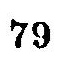79
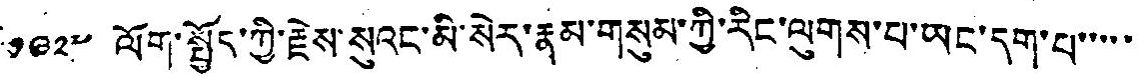༡༩༢༧ ལོག་སྤྱོད་ཀྱི་རྗེས་སུའང་མི་སེར་རྣམ་གསུམ་ཀྱི་རིང་ལུགས་པ་ཡང་དག་པ་་་་་
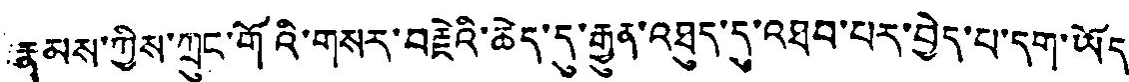རྣམས་ཀྱིས་ཀྲུང་གོའི་གསར་བརྗེའི་ཆེད་དུ་རྒྱུན་འཐུད་དུ་འཐབ་པར་བྱེད་པ་དག་ཡོད་
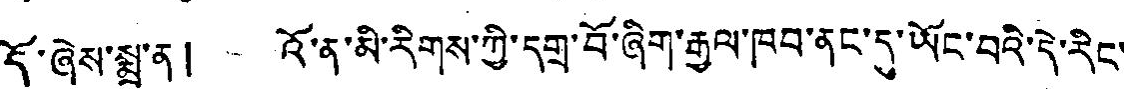དོ་ཞེས་སྨྲ་ན། འོ་ན་མི་རིགས་ཀྱི་དགྲ་བོ་ཞིག་རྒྱལ་ཁབ་ནང་དུ་ཡོང་བའི་དེ་རིང་
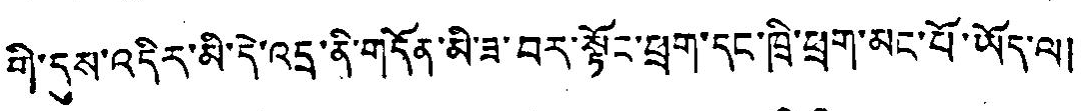གི་དུས་འདིར་མི་དེ་འདྲ་ནི་གདོན་མི་ཟ་བར་སྟོང་ཕྲག་དང་ཁྲི་ཕྲག་མང་པོ་ཡོད་ལ།
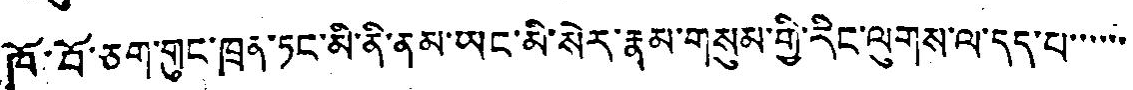ཁོ་བོ་ཅག་གུང་ཁྲན་ཏང་མི་ནི་ནམ་ཡང་མི་སེར་རྣམ་གསུམ་གྱི་རིང་ལུགས་ལ་དད་པ་་་་་་
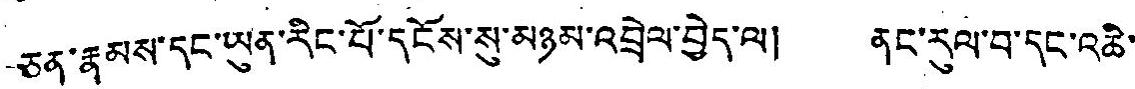ཅན་རྣམས་དང་ཡུན་རིང་པོ་དངོས་སུ་མཉམ་འབྲེལ་བྱེད་ལ། ནང་རུལ་བ་དང་འཆེ་
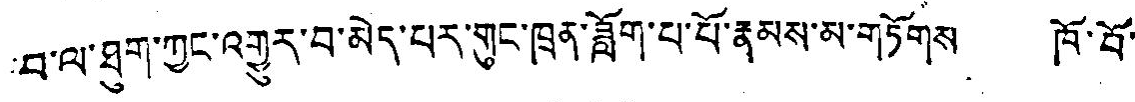བ་ལ་ཐུག་ཀྱང་འགྱུར་བ་མེད་པར་གུང་ཁྲན་ཟློག་པ་པོ་རྣམས་མ་གཏོགས ཁོ་བོ་
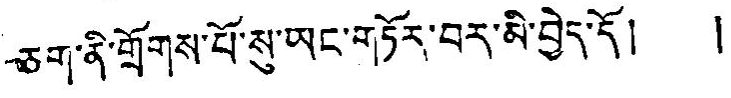ཅག་ནི་གྲོགས་པོ་སུ་ཡང་གཏོར་བར་མི་བྱེད་དོ། །
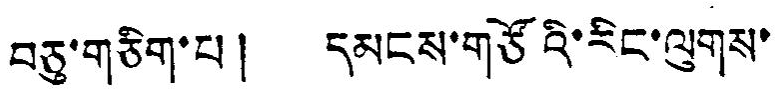བཅུ་གཅིག་པ། དམངས་གཙོའི་རིང་ལུགས་
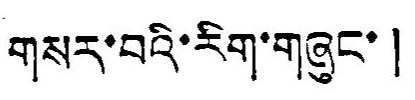གསར་བའི་རིག་གཞུང་།
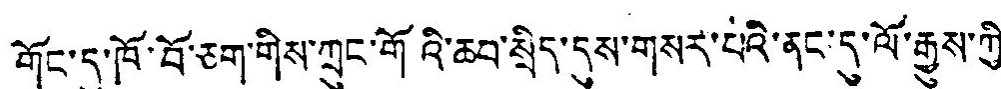གོང་དུ་ཁོ་བོ་ཅག་གིས་ཀྲུང་གོའི་ཆབ་སྲིད་དུས་གསར་པའི་ནང་དུ་ལོ་རྒྱུས་ཀྱི་
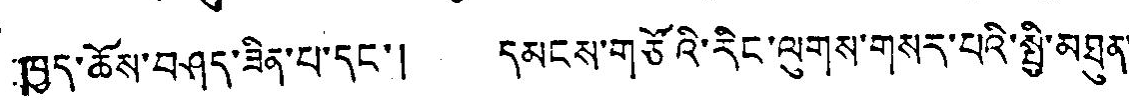ཁྱད་ཆོས་བཤད་ཟིན་པ་དང་། དམངས་གཙོའི་རིང་ལུགས་གསྲ་པའི་སྤྱི་མཐུན་
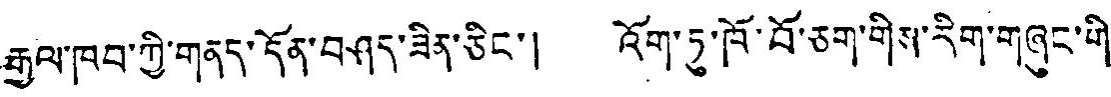རྒྱལ་ཁབ་ཀྱི་གནད་དོན་བཤད་ཟིན་ཅིང་། འོག་ཏུ་ཁོ་བོ་ཅག་གིས་རིག་གཞུང་གི་
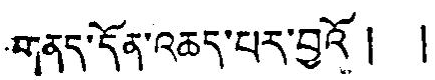གནད་དོན་འཆད་པར་བྱའོ། །
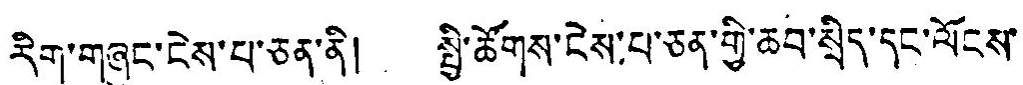རིག་གཞུང་ངེས་པ་ཅན་ནི། སྤྱི་ཚོགས་ངེས་པ་ཅན་གྱི་ཆབ་སྲིད་དང་ལོངས་
